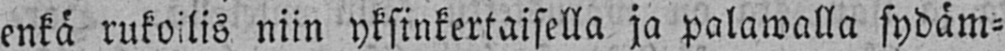enkä rukoilis niin yksinkertaisella ja palawalla sydäm-
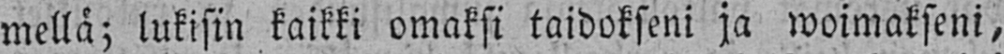mellä; lukisin kaikki omaksi taidokseni ja woimakseni,
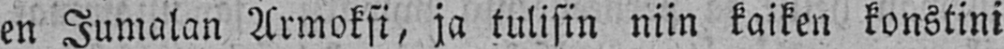en Jumalan Armoksi, ja tulisin niin kaiken konstini
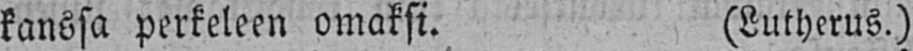kanssa perkeleen omaksi. (Lutherus.)
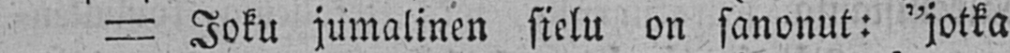= Joku jumalinen sielu on sanonut: "jotka
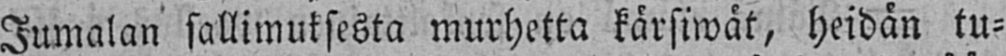Jumalan sallimuksesta murhetta kärsiwät, heidän tu-
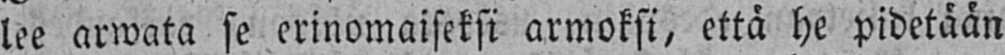lee arwata se erinomaiseksi armoksi, että he pidetään
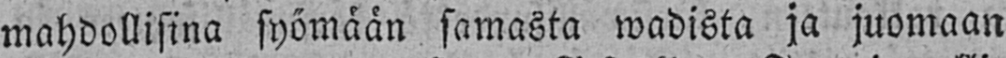mahdollisina syömään samasta wadista ja juomaan
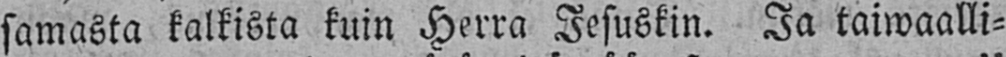samasta kalkista kuin Herra Jesuskin. Ja taiwaalli-
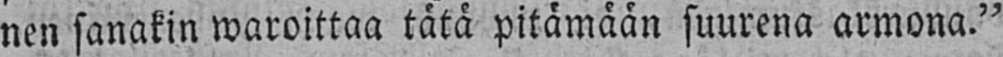nen sanakin waroittaa tätä pitämään suurena armona."
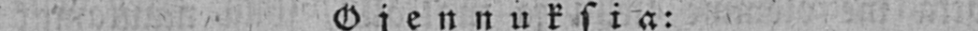Ojennuksia:
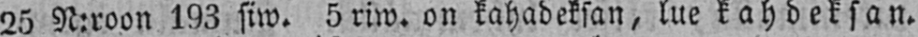26 Neroon 193 siw. 5 riw. on kahadeksan, lue kahdeksan.
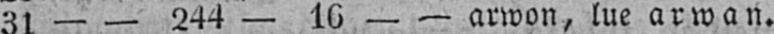31 — — 244 — 16 — — arwon, lue arwan.
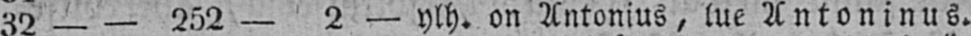32 — — 252 — 2 — ylh. on Antonius, lue Antoninus.
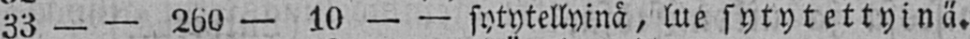33 — — 260 — 10 — — sytytellyinä, lue sytytellyinä.
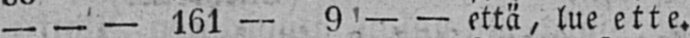— — — 161 — 9 — — että, lue ette.
